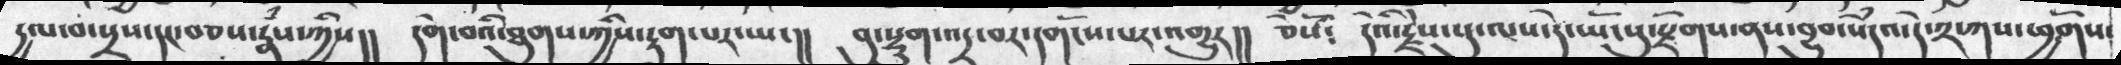དྱལ་བ་སྲས་དང་བཅས་རྣཾས་ཀྱིས།།  དགེ་བའི་ཐུགས་ཀྱིས་རྟག་པར་ཡང།།  བུ་སྡུག་འདྲ་བར་དགོངས་པར་འགྱུར།།  ཅེསོ༴  དེའི་རྗེས་སུ་ལས་དེ་ཡོངསུ་སྫོགས་ནས་བྱུབ་སེཾདའ་དེ་༢་ཀས་ཕྱོགས་
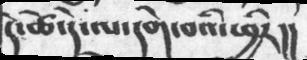དེ་ཚེ་དེ་ལ་དགེ་བའི་ཕྱིར།།
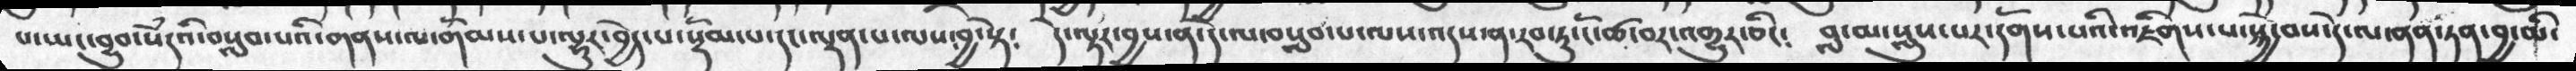པ་ཡང་བྱུབ་སེཾདའི་བསླབ་པའི་གནས་ལ་གོམས་པ་ལྷུར་བྱེད་པ་སྡོམ་པ་དང་ལྡན་པ་ལས་བྱ་སྟེ༴  དེ་ལྟར་བྱས་ན་དེ་ལ་བསླབ་པ་ལས་འདས་ན་རབ་ཏུ་ངོ་ཚ་བར་འགྱུར་ཅིང༴  བླ་མ་སླུས་པར་དགོས་པའི་འཇིགས་པ་སྐྱེ་བས་དེ་ལ་ནན་ཏན་བྱ་མི་
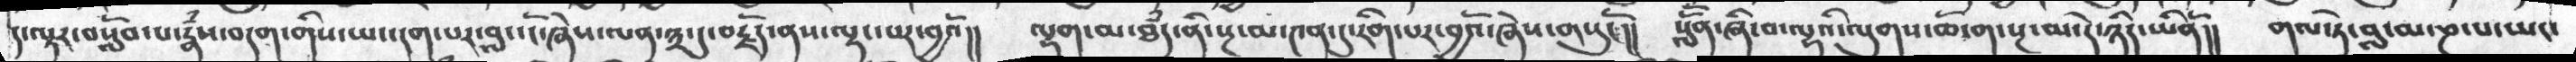ད་ལྟར་བསློབ་པ་རྣཾས་བདག་གིས་ཡང་དག་པར་བླང་ངོ་ཞེས་ལན་༣་དུ་བརྗོད་ནས་ལྡང་པར་བྱའོ།།  ལྷག་མ་ཐཾད་ནི་སྔ་མ་༤ན་དུ་རིག་པར་བྱའོ་ཞེས་གསུངོ།།  སློོན་ཞི་བ་ལྷའི་ལུགས་ཆོ་ག་སྔ་མ་དེ་ཉིད་ཡིནོ།།  གལ་ཏེ་བླ་མ་ཎ་པ་ཡང་
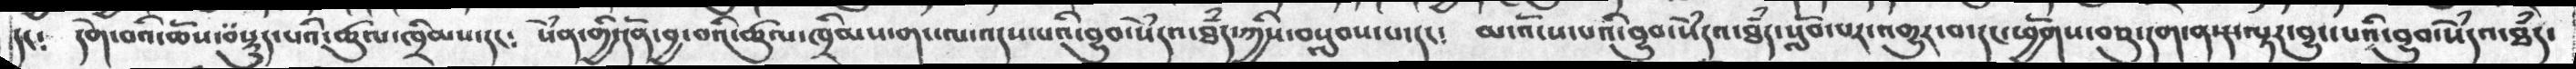དང༴ དགེ་བའི་ཆོས་བསྡུད་པའི་ཚུལ་ཁྲིམས་དང༴ སེཾན་གྱི་དོན་བྱ་བའི་ཚུལ་ཁྲིམས་གང་ལ་འདས་པའི་བྱུབ་སེཾདའ་ཐཾད་ཀྱིས་བསླབ་པ་དང༴ མ་འོངས་པའི་བྱུབ་སེཾདའ་ཐཾད་སློབ་པར་འགྱུར་བ་དང་ཕྱོགས་བཅུ་དག་ན་ད་ལྟར་བྱུང་པའི་བྱུབ་སེཾདའ་ཐཾད་
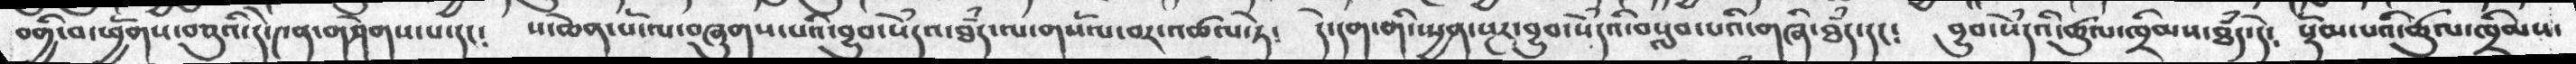བགྱི་བ་ཕྱོགས་བཅུའི་དེ་༤ན་གཤེགས་པ་དང༴ ས་ཆེན་པོ་ལ་བཞུགས་པའི་བྱུབ་སེཾདའ་ཐཾད་ལ་གསོལ་བར་འཚལ་ཏེ༴ དེ་དག་གི་སྤྱ་སྔར་བྱུབ་སེཾདའི་བསླབ་པའི་གཞི་ཐཾད་དང༴ བྱུབ་སེཾདའི་ཚུལ་ཁྲིམས་ཐཾད་དེ༴ སྡོམ་པའི་ཚུལ་ཁྲིམས་
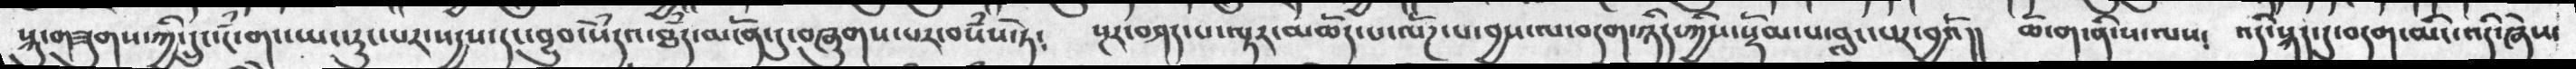སྐུ་གཟུགས་ཀྱི་དྲུང་ངཾགང་ཡང་རུང་པར་སདྱས་དང་བྱུབ་སེཾདའ་ཐཾད་མངོན་དུ་བཞུགས་པར་བསཾས་ཏེ༴ སྔར་བཤད་པ་ལྟར་མཆོད་པ་ལོཌ་པ་བྱས་ལ་བདག་ཉིད་ཀྱིས་སྡོམ་པ་བླང་པར་བྱའོ།། ཆོ་ག་ནི་ས་ལས༴ འདི་སྐད་དུ་བདག་མིང་འདི་ཞེས་
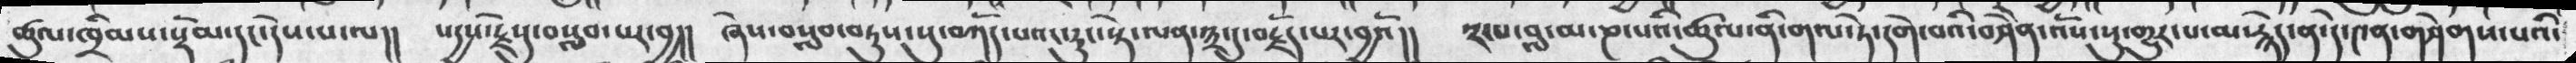ཚུལ་ཁྲིམས་སྡོམ་དང་དེས་ས་ལ།།  སདྱས་རྗེསུ་བསླབ་པར་བྱ།། ཞེས་བསླབ་བཏུས་སུ་བཀོད་པའང་རུང་སྟེ་ལན་༣་དུ་བརྗོད་པར་བྱའོ།།  ༢་པ་བླ་མ་ཎ་པའི་ཚུལ་ནི་གལ་ཏེ་དགེ་བའི་བཤཻན་འོས་སུ་གྱུར་པ་མ་རྙེད་ན་དེ་༤ན་གཤེགས་པའི་
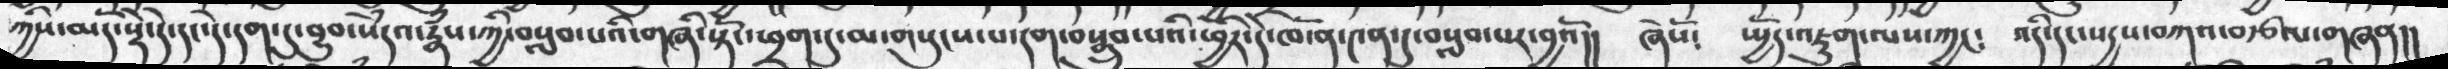ཀྱིས་མདོ་སྡེ་དེ་དང་དེ་དག་དུ་བྱུབ་སེཾདའ་རྣཾས་ཀྱི་བསླབ་པའི་གཞི་སྟོང་ཕྲག་དུ་མ་གསུངས་པ་དག་བསྒྲུབ་པའི་ཕྱིར་དེ་ཁོ་ན་༤ན་དུ་བསླབ་པར་བྱའོ།། ཞེསོ༴ སྤྱོད་འཇུག་ལས་ཀྱང༴ འདི་དང་སདྱས་བཀའ་བརྩལ་གཞན།།
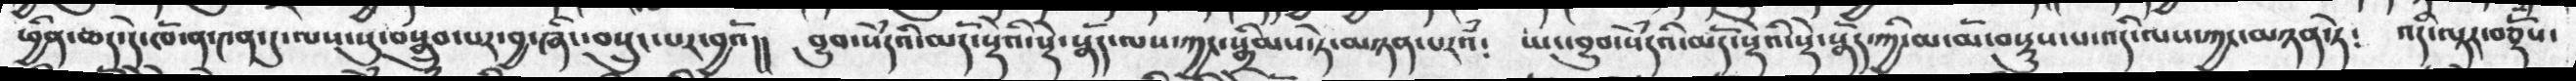ཕྱིན་ཆད་དེ་ཁོ་ན་༤ན་དུ་ལས་སུ་བསྒྲུབ་པར་བྱ་ཞིང་བསྲུང་པར་བྱའོ།།  བྱུབ་སེཾདའི་མདོ་སྡེའི་སྡེ་སྣོད་ལས་ཀྱང་སྒྲིམས་ཏེ་མཉན་པརའཾ༴  ཡང་བྱུབ་སེཾདའི་མདོ་སྡེའི་སྡེ་སྣོད་ཀྱི་མ་མོ་བསྡུས་པ་འདི་ལས་ཀྱང་མཉན་ཏེ༴  འདི་ལྟར་བཅྡོས་
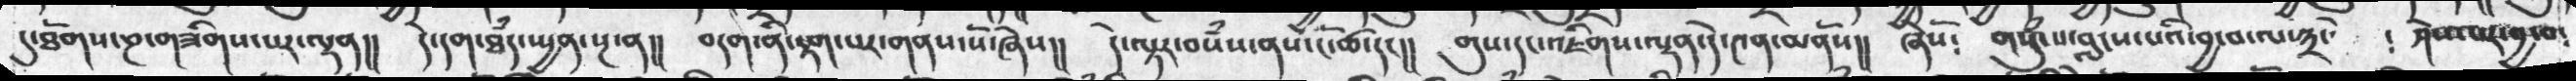དུ་ཐོགས་ཎ་གཟིགས་པར་ལྡན།། དེ་དག་ཐཾད་སྤྱན་སྔ་ན།། བདག་ནི་རྟག་པར་གནས་སོ་ཞེས།། དེ་ལྟར་བསཾས་ནས་ངོ་ཚ་དང།། གུས་དང་འཇིགས་ལྡན་དེ་༤ན་མནོས།། ཞེསོ༴ གསུཾ་པ་བླངས་པའི་བྱ་བ་ལ་༣་ ༴ ཤེས་པར་བྱ་བ༴
